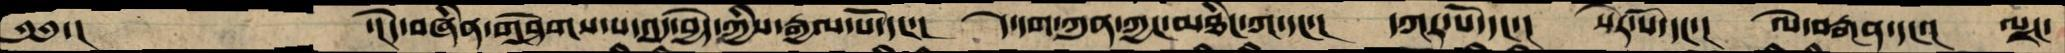༄༅་།           ་།དེ་བཞིན་གཤེགས་པ་འདུ་བྱེད་ཀྱིས་རྒྱལ་པོ་དང་།   དེ་དག་ཀུན་ཀྱང་མཐིང་ཀ་དང་།  དཀར་པོ་དང་།  སེར་པོ་དང་།  ལེ་བརྒན་དང་།  ལྗང་
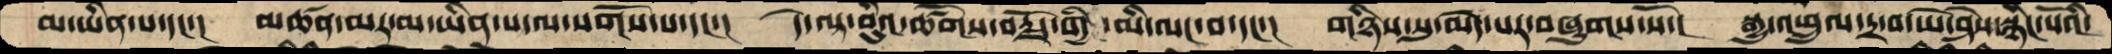མ་ཡིན་པ་དང་།  མཚན་མར་མ་ཡིན་པ་ལ་སགོས་པ་དང་།  དེ་ལྟ་བུའི་ཚོགས་བརྗོད་གྱི་ མི་ལང་བ་དང་།  གཉིས་སུ་མེད་པར་བཞུགས་སོ་།  སྒྱུ་འཕྲུལ་དྲ་བ་ཡེ་ཤེས་སྙིང་པོའི་
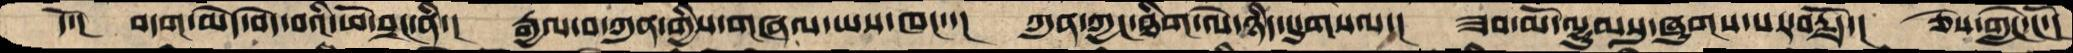དོ་།    བདག་མེད་བདེ་བའི་ཕོ་བྲང་ནི་།   རྒྱལ་བ་ཀུན་གྱིས་གཞལ་ཡས་ཁང་་།  ཀུན་ཀྱང་ཐིག་ལེ་ཉིད་དུ་གསལ་།  ཟབ་མོ་ལྷུམསུ་ཞུགས་པར་བརྗོད་།  ཅེས་གླེང་ངོ་།
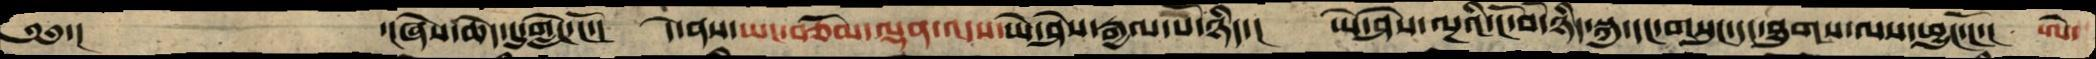༄༅་།          ་།ཞེས་ཆེད་དུ་གླེང་ངོ་།   དེ་ནས་ཡང་བཅོམ་ལྡན་འདས་ཡེ་ཤེས་རྒྱལ་པོ་ཉིད་།  ཡེ་ཤེས་ལྔའི་ངོ་བོ་ཉིད་སྐུ་དང་གསུང་དང་ཐུགས་ལས་ཕྱུང་ངོ་།  ཨེ་
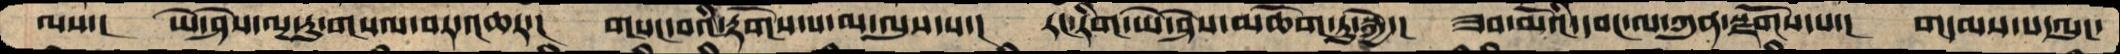ལས་།   ཡེ་ཤེས་ལྔ་རུ་གསལ་བར་འཆར་།   གསང་བའི་རྟོགས་པ་མ་ལུས་པ་།   རང་རིག་ཡེ་ཤེས་མཆོག་ཏུ་སྐྱེ་།   ཟབ་མོའི་དབང་ལ་ཀུན་སྫོགས་པ་།  གདམས་པ་ལུང་
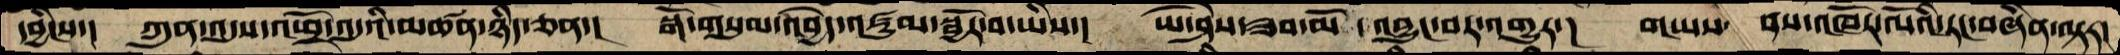དབྱིངས་།  ཀུན་འདུས་འཕྲོ་འདུའི་མཚན་ཉིད་ཅན་།  སྒོ་གསུམ་འབྱེད་འཛུམ་སྦྱོར་བ་ཡིས་།  ཡེ་ཤེས་ཟབ་མོ ་འབྱུང་བར་འགྱུར་།  གཡས་ ནས་འཁོར་ལོའི་རང་བཞིན་ལྟར་
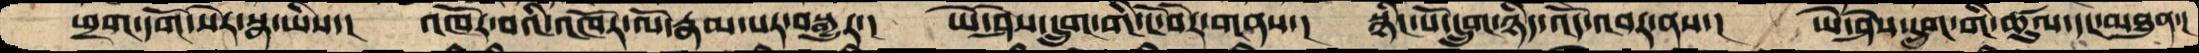ཕྲག་དོག་སེར་སྣ་ཡིས་།   འཁོར་བའི་འཁོར་ལོ་རྣམ་པར་བསྒྱུར་།  ཡེ་ཤེས་དྲུག་གི་ངོ་བོར་གནས་།  སྙིང་པོ་དྲུག་ཉིད་འོད་འབར་ནས་།  ཡེ་ཤེས་དྲུག་གི་ཚུལ་དང་མཐུན་།
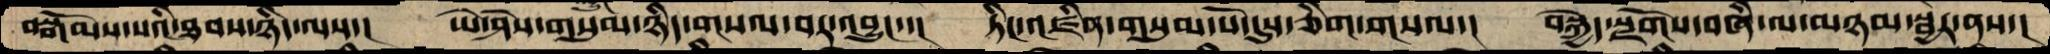བསྒོམས་པའི་ཐབས་ཉིད་ལས་།    ཡེ་ཤེས་གསུམ་ཉིད་གསལ་བར་འབྱུང་་།    ཏིང་འཛིན་གསུམ་པོ་དུས་ཅིག་གསལ་།   བསྐྱེད་སྫོགས་བཞི་ལ་མཉམ་སྦྱར་ནས་།
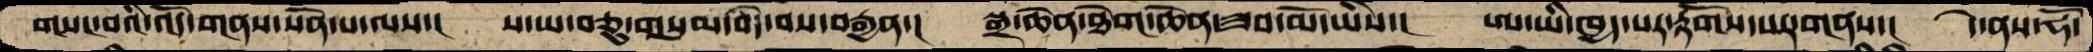གསང་བའི་འོད་གནས་སོན་པ་ལས་།   ས་ཡ་བཅུ་གསུམ་བདེ་བས་བརྒྱན་།   སྒྲ་ཆེན་ཐེག་ཆེན་ཟབ་མོ་ཡིས་།   ཨ་ཡི་ཁྱད་པར་རྟོགས་པར་གནས་།  དེ་ནས་ཧོ་
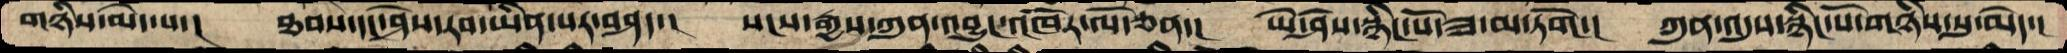གཉིས་མེད་པ་།     ཐབས་དང་ཤེས་རབ་ཡིན་པར་བཤད་།   སངས་རྒྱས་ཀུན་འབྱུང་འཁོར་ལོ་ཅན་།   ཡེ་ཤེས་སྙིང་པོ་ཟ་མ་ཏོག་།  ཀུན་འདུས་སྙིང་པོ་གཉིས་སུ་མེད་།
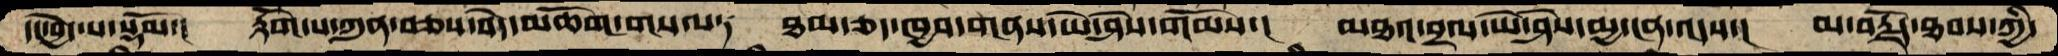དང་བྱེད་པ་སྡོམ་།   རྟོག་པ་ཀུན་བཅས་བདེ་མཆོག་གསལ་།  ཐམ་ཅད་ཁྱབ་གནས་ཡེ་ཤེས་གོམས་།  མཐའ་བྲལ་ཡེ་ཤེས་མྱ་ངན་འདས་།  མ་བརྗོད་ཐབས་ཀྱི་
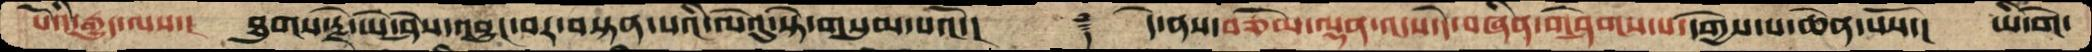པོའི་རྒྱུད་ལས་།  ཐུགས་རྗེ་ཡེ་ཤེས་འབྱུང་བར་བསྟན་པའི་ལེའུ་སྟེ་གསུམ་པའོ་།       ࿑  དེ་ནས་བཅོམ་ལྡན་འདས་དེ་བཞིན་གཤེགས་པ་དགྱེས་པ་ཆེན་པོས་།  ཡི་གེ་
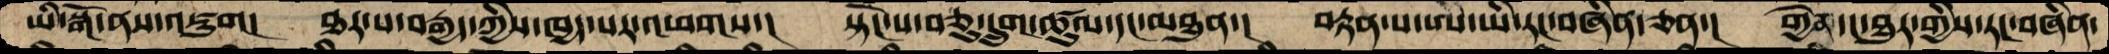ཡི་སྒོ་ནས་འཇུག། ཐར་པ་བརྒྱད་ཀྱིས་ཁྱད་པར་འཕགས་། སྟོང་པ་བཅུ་དྲུག་ཚུལ་དང་མཐུན་། བརྟན་པ་ཨི་ཡི་རང་བཞིན་ཅན་། གྱེན་དང་ཐུར་གྱིས་རང་བཞིན་
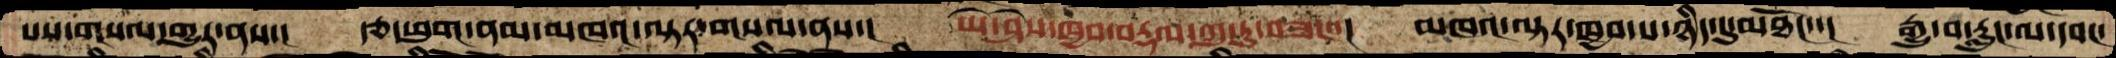པས་གསལ་གྱུར་ནས་།  རྩ་ཕུག་ནམ་མཁའ་ལྟར་གསལ་ནས་།  ཡེ་ཤེས་ཁྱབ་བརྡལ་ཀུ་རུ་བཟང་་།  མཁའ་ལྟར་ཁྱབ་པ་ཉིད་དུ་མཐོང་་།  རྒྱུ་བ་རླུང་ལ་དབང་
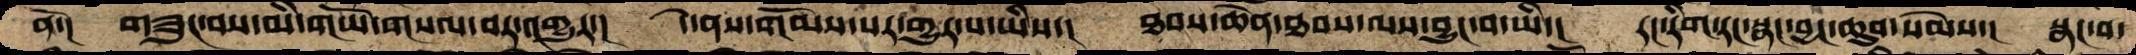ནོ་།  གཟུང་བས་མི་གཡོ་གསལ་བར་འགྱུར་།   དེ་ནས་གོམས་པར་གྱུར་པ་ཡིས་།  ཐབས་ཆེན་ཐབས་ལས་བྱུང་བ་ཡི་།  རང་རིག་རང་སྣང་བྱང་ཆུབ་སེམས་།  སྣང་བ་
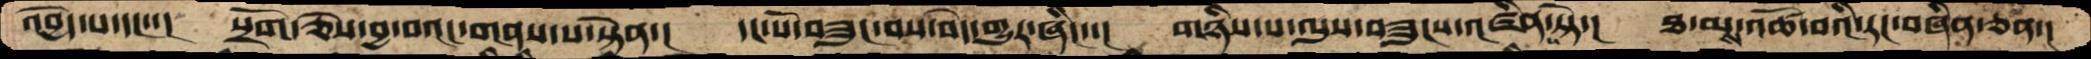འབྱེད་པ་དང་་། སྲོག་ཅེས་བྱ་བའང་གནས་པ་སྟེན་། དང་པོ་བཟུང་བས་བདེ་གྱུར་ཞིང་་། གཉིས་པ་ལུས་བཟུངས་འཛིན་པ་སྟེ་། ཐ་མས་འཚོ་བའི་རང་བཞིན་ཅན་།
